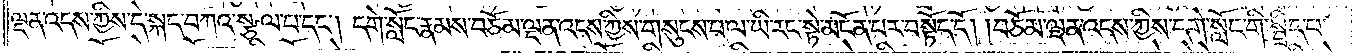ལྡན་འདས་ཀྱིས་དེ་སྐད་བཀའ་སྩལ་པ་དང༌། དགེ་སློང་རྣམས་བཅོམ་ལྡན་འདས་ཀྱིས་གསུངས་པ་ལ་ཡི་རང་སྟེ་མངོན་པར་བསྟོད་དོ། །བཅོམ་ལྡན་འདས་ཀྱིས་དགེ་སློང་གི་སྦྲིད་པ་
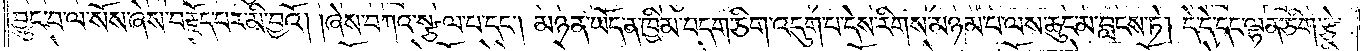བྱུང་བ་ལ་སོས་ཞེས་བརྗོད་པར་མི་བྱའོ། །ཞེས་བཀའ་སྩལ་པ་དང༌། མཉན་ཡོད་ན་ཁྱིམ་བདག་ཅིག་འདུག་པ་དེས་རིགས་མཉམ་པ་ལས་ཆུང་མ་བླངས་ཏེ། དེ་དེ་དང་ལྷན་ཅིག་རྩེ་
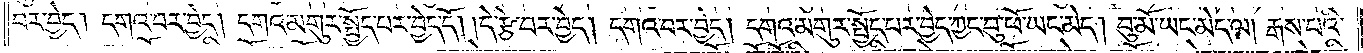བར་བྱེད། དགའ་བར་བྱེད། དགའ་མགུར་སྤྱོད་པར་བྱེད་དོ། །དེ་རྩེ་བར་བྱེད། དགའ་བར་བྱེད། དགའ་མགུར་སྤྱོད་པར་བྱེད་ཀྱང་བུ་ཕོ་ཡང་མེད། བུ་མོ་ཡང་མེད་ལ། རྒས་པའི་
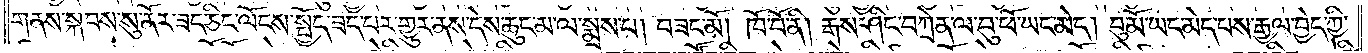གནས་སྐབས་སུ་ནོར་ཟད་ཅིང་ལོངས་སྤྱོད་ཟད་པར་གྱུར་ནས་དེས་ཆུང་མ་ལ་སྨྲས་པ། བཟང་མོ། ཁོ་བོ་ནི། རྒས་ཤིང་བཀྲེན་ལ་བུ་ཕོ་ཡང་མེད། བུ་མོ་ཡང་མེད་པས་རྒྱལ་བྱེད་ཀྱི་
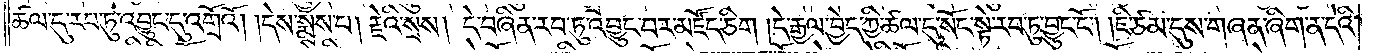ཚལ་དུ་རབ་ཏུ་འབྱུང་དུ་འགྲོའོ། །དེས་སྨྲས་པ། རྗེའི་སྲས། དེ་བཞིན་རབ་ཏུ་འབྱུང་བར་མཛོད་ཅིག །དེ་རྒྱལ་བྱེད་ཀྱི་ཚལ་དུ་སོང་སྟེ་རབ་ཏུ་བྱུང་ངོ༌། །ཇི་ཙམ་དུས་གཞན་ཞིག་ན་དེའི་
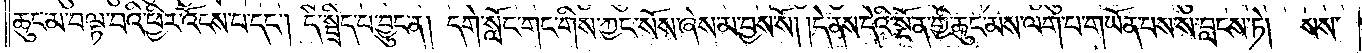ཆུང་མ་བལྟ་བའི་ཕྱིར་འོངས་པ་དང༌། དེ་སྦྲིད་པ་བྱུང་ན། དགེ་སློང་གང་གིས་ཀྱང་སོས་ཞེས་མ་བྱས་སོ། །དེ་ནས་དེའི་སྔོན་གྱི་ཆུང་མས་ལག་པ་གཡོན་པས་ས་བླངས་ཏེ། སས་
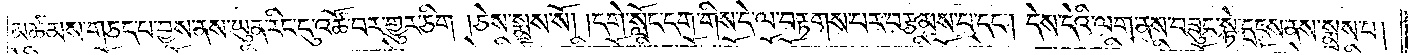མཚམས་གཅད་པ་བྱས་ནས་ཡུན་རིང་དུ་འཚོ་བར་གྱུར་ཅིག །ཅེས་སྨྲས་སོ། །དགེ་སློང་དག་གིས་དེ་ལ་བརྟགས་པར་བརྩམས་པ་དང༌། དེས་དེའི་ལག་ནས་བཟུང་སྟེ་དྲངས་ནས་སྨྲས་པ།
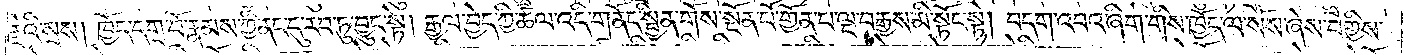རྗེའི་སྲས། ཁྱོད་དགྲ་བོ་རྣམས་ཀྱི་ནང་དུ་རབ་ཏུ་བྱུང་སྟེ། རྒྱལ་བྱེད་ཀྱི་ཚལ་འདི་གནོད་སྦྱིན་གོས་སྔོན་པོ་གྱོན་པ་ལྔ་བརྒྱས་མི་སྟོང་སྟེ། བདག་འབའ་ཞིག་གིས་ཁྱོད་ལ་སོས་ཞེས་བགྱིས་
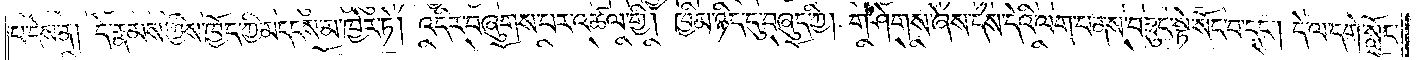པ་དེས་ན། དེ་རྣམས་ཀྱིས་ཁྱོད་ཀྱི་མདངས་མ་ཁྱེར་ཏེ། འདིར་བཞུགས་པར་འཚལ་གྱི། ཁྱིམ་ཉིད་དུ་བཞུད་ཀྱི། གཤེགས་ཞེས་དེས་དེའི་ལག་པ་ནས་བཟུང་སྟེ་སོང་བ་དང༌། དེ་ལ་དགེ་སློང་
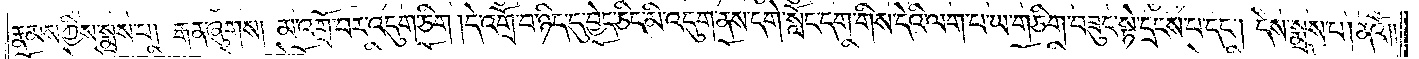རྣམས་ཀྱིས་སྨྲས་པ། རྒན་ཞུགས། མ་འགྲོ་བར་འདུག་ཅིག །དེ་འགྲོ་བ་ཉིད་དུ་བྱེད་ཅིང་མི་འདུག་ནས་དགེ་སློང་དག་གིས་དེའི་ལག་པ་ཡ་གཅིག་བཟུང་སྟེ་དྲངས་པ་དང༌། དེས་སྨྲས་པ། ནའོ། །
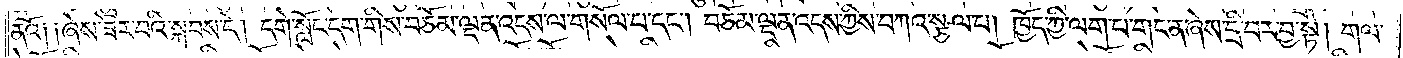ནའོ། །ཞེས་ཟེར་བའི་སྐབས་དེ། དགེ་སློང་དག་གིས་བཅོམ་ལྡན་འདས་ལ་གསོལ་པ་དང༌། བཅོམ་ལྡན་འདས་ཀྱིས་བཀའ་སྩལ་པ། ཁྱོད་ཀྱི་ལག་པ་གང་ན་ཞེས་དྲི་བར་བྱ་སྟེ། གལ་
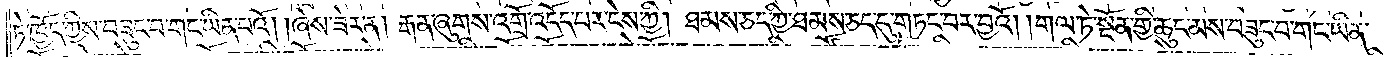ཏེ་ཁྱོད་ཀྱིས་བཟུང་བ་གང་ཡིན་པའོ། །ཞེས་ཟེར་ན། རྒན་ཞུགས་འགྲོ་འདོད་པར་ངེས་ཀྱི། ཐམས་ཅད་ཀྱི་ཐམས་ཅད་དུ་གཏང་བར་བྱའོ། །གལ་ཏེ་སྔོན་གྱི་ཆུང་མས་བཟུང་བ་གང་ཡིན་
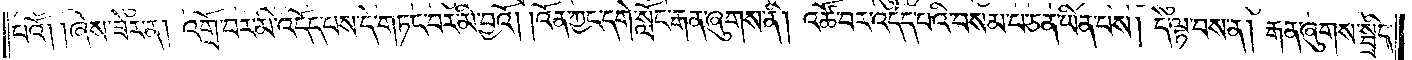པའོ། །ཞེས་ཟེར་ན། འགྲོ་བར་མི་འདོད་པས་དེ་གཏང་བར་མི་བྱའོ། །འོན་ཀྱང་དགེ་སློང་རྒན་ཞུགས་ནི། འཚོ་བར་འདོད་པའི་བསམ་པ་ཅན་ཡིན་པས། དེ་ལྟ་བས་ན། རྒན་ཞུགས་སྦྲིད་
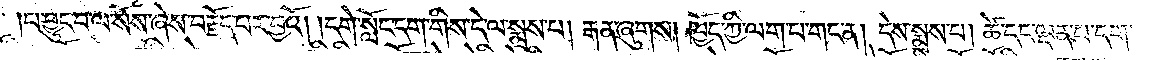།བ་བྱུང་བ་ལ་སོས་ཞེས་བརྗོད་པར་བྱའོ། །དགེ་སློང་དག་གིས་དེ་ལ་སྨྲས་པ། རྒན་ཞུགས། ཁྱོད་ཀྱི་ལག་པ་གང་ན། དེས་སྨྲས་པ། ཚེ་དང་ལྡན་པ་དག་
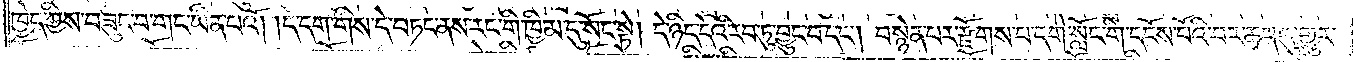ཁྱེད་ཀྱིས་བཟུང་བ་གང་ཡིན་པའོ། །དེ་དག་གིས་དེ་བཏང་ནས་རང་གི་ཁྱིམ་དུ་སོང་སྟེ། དེ་ཉིད་དེའི་རབ་ཏུ་བྱུང་བ་དང༌། བསྙེན་པར་རྫོགས་པ་དགེ་སློང་གི་དངོས་པོའི་བར་ཆད་དུ་གྱུར་
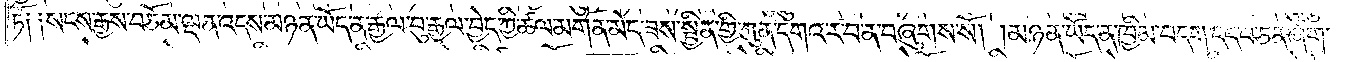ཏོ༑ ༑སངས་རྒྱས་བཅོམ་ལྡན་འདས་མཉན་ཡོད་ན་རྒྱལ་བུ་རྒྱལ་བྱེད་ཀྱི་ཚལ་མགོན་མེད་ཟས་སྦྱིན་གྱི་ཀུན་དགའ་ར་བ་ན་བཞུགས་སོ། །མཉན་ཡོད་ན་ཁྱིམ་བདག་དད་པ་ཅན་ཞིག་
